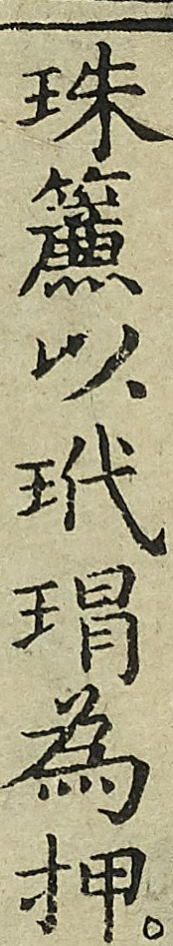珠簾以玳瑁為押
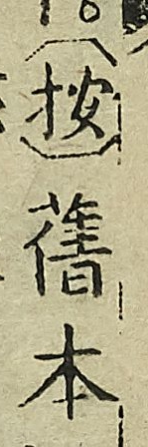（按）舊本
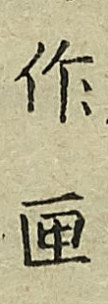竹匣
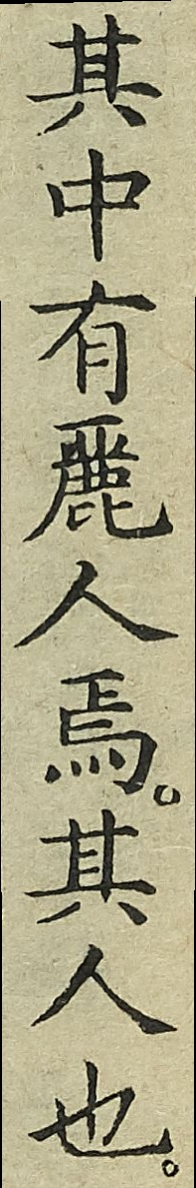其中有麗人焉其人也
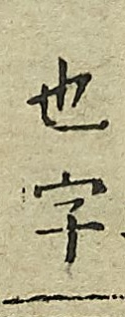也字
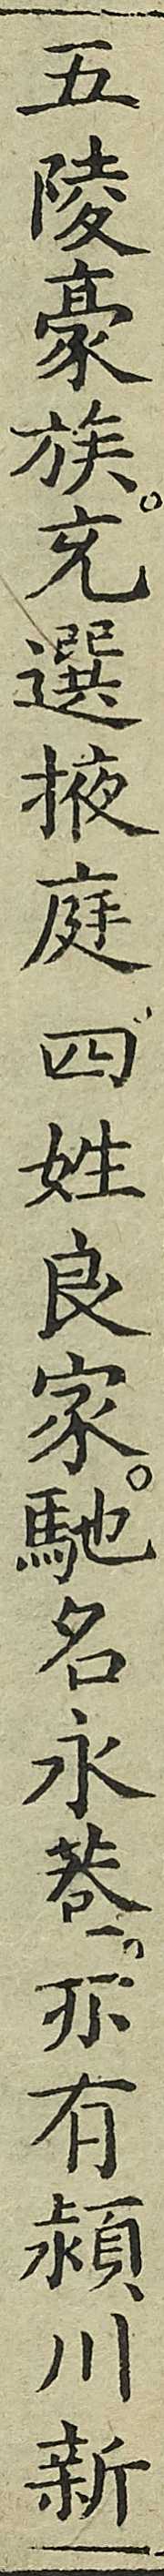五陵豪族充選掖庭四姓良家馳名永巷亦有潁川新
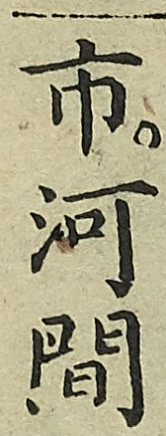市河間
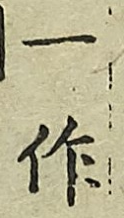一作
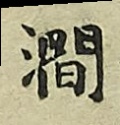澗
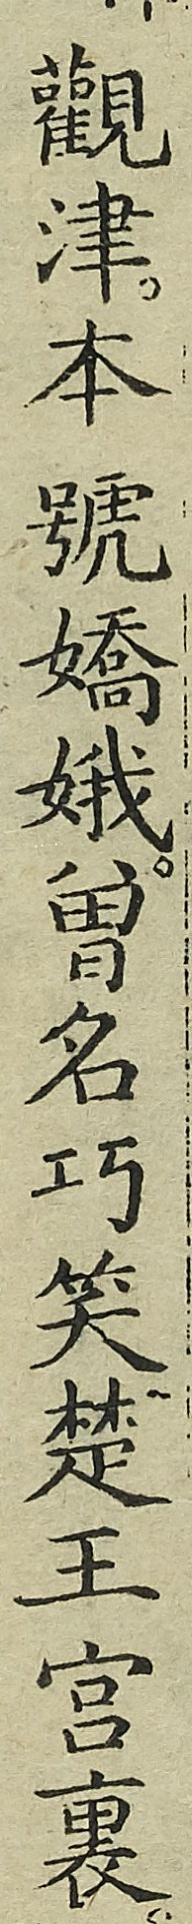觀津本號嬌娥曾名巧笑楚王宮裏
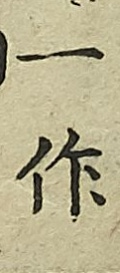一作
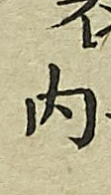內
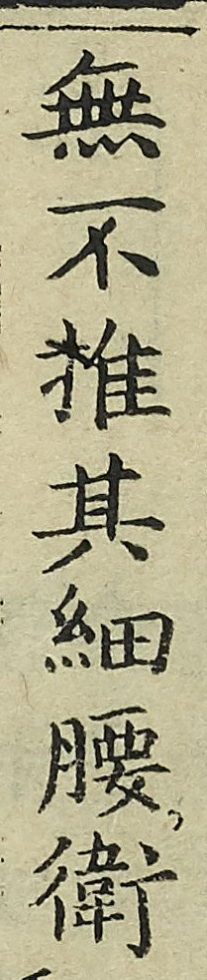無不推其細腰衛
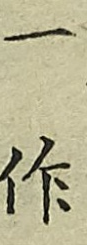一作
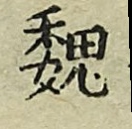魏
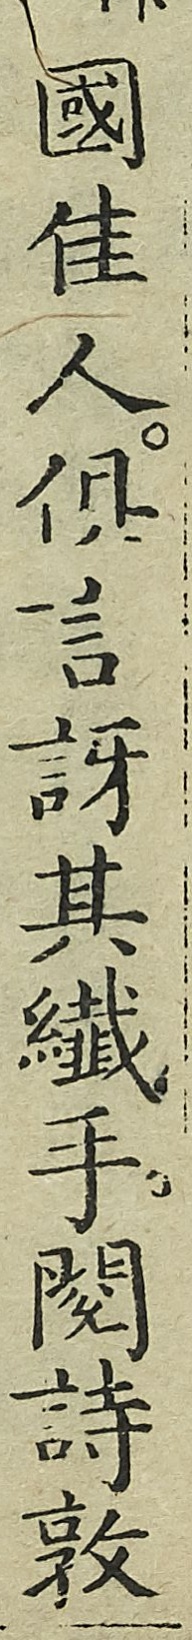國佳人俱言訝其纎手閱詩敦
